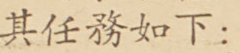其任務如下：
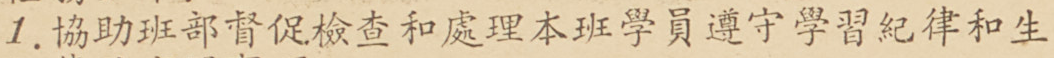1.協助班部督促檢查和處理本班學員遵守學習紀律和生
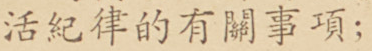活紀律的有關事項；
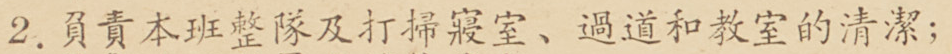2.負責本班整隊及打掃寢室、過道和教室的清潔；
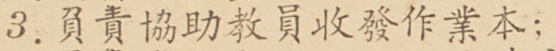3.負責協助教員收發作業本；
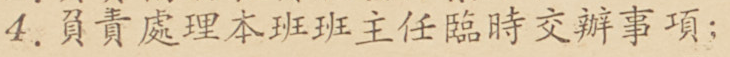4.負責處理本班班主任臨時交辦事項；
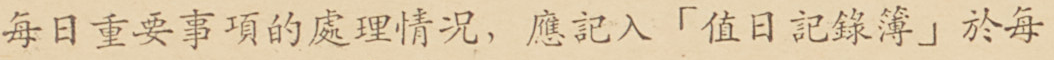每日重要事項的處理情況，應記入「值日紀錄簿」於每
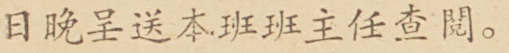日晚呈送本班班主任查閱。
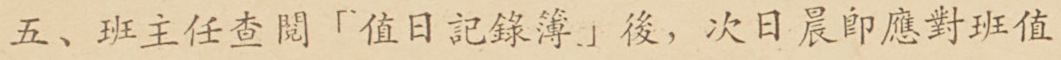五、班主任查閱「值日紀錄簿」後，次日晨卽應對班值
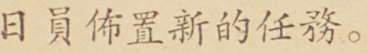日員佈置新的任務。
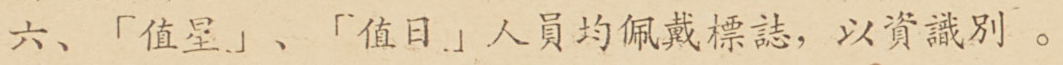六、「值星」、「值日」人員均佩戴標誌，以資識別。
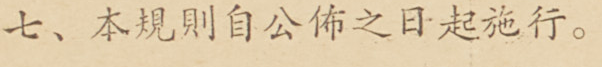七、本規則自公佈之日起施行。
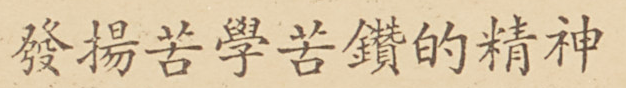發揚苦學苦鑽的精神
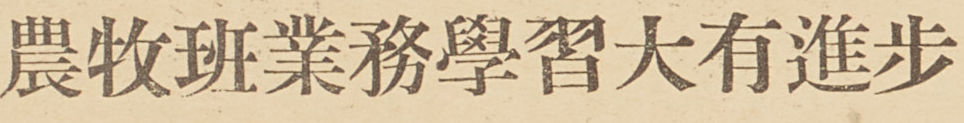農牧班業務學習大有進步
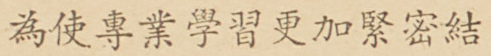爲使專業學習更加緊密結
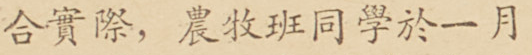合實際，農牧班同學於一月
